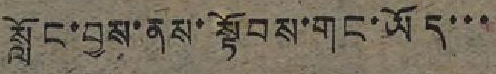སློང་བྱས་ནས་སྟོབས་གང་ཡོད་་་
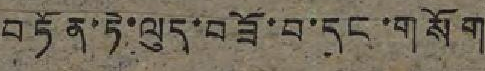བཏོན་ཏེ་ལུད་བཟོ་བ་དང་གསོག
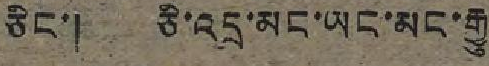ཅིང་། ཅི་འདྲ་མང་ཡང་མང་རྒྱུ
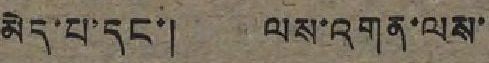མེད་པ་དང་། ལས་འགན་ལས་
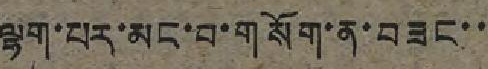ལྷག་པར་མང་བ་གསོག་ན་བཟང་་
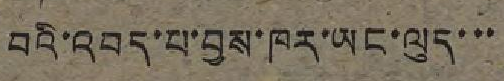བའི་འབད་པ་བྱས་ཁར་ཡང་ལུད་་་
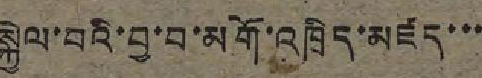སྐྱེལ་བའི་བྱ་བ་མགོ་འཁྲིད་མཛད་་་
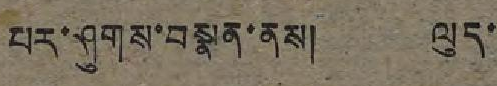པར་ཤུགས་བསྣན་ནས། ལུད་
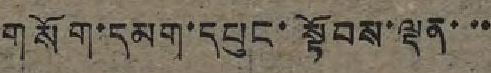གསོག་དམག་དཔུང་སྟོབས་ལྡན་་་
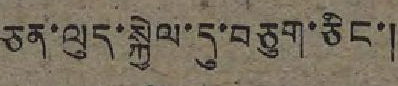ཅན་ལུད་སྐྱེལ་དུ་བཅུག་ཅིང་།
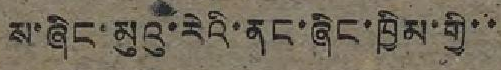ས་ཞིང་མུའུ་རེའི་ནང་ཞིང་ཁྱིམ་གྱི་་
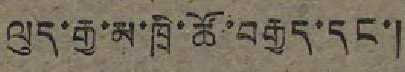ལུད་རྒྱ་མ་ཁྲི་ཚོ་བརྒྱད་དང་།
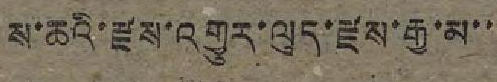ས་ཆའི་རྫས་འགྱུར་ལུད་རྫས་རྒྱ་མ་་
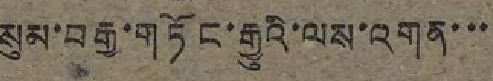སུམ་བརྒྱ་གཏོང་རྒྱུའི་ལས་འགན་་་
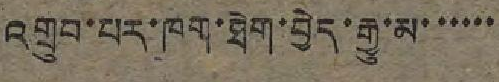འགྲུབ་པར་ཁག་ཐེག་བྱེད་རྒྱུ་མ་་་་་་
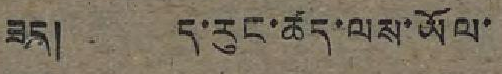ཟད། ད་རུང་ཚད་ལས་ཡོལ་
